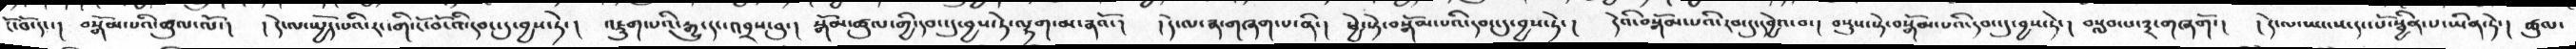ངོ་བོ་དང་།  བསྒོམ་པའི་ཚུལ་ལོ་།  །དེ་ལ་སྤྱོད་པའི་རང་གི་ངོ་བོ་འི་རབ་དུ་བྱས་ཏེ་།  འཇུག་པའི་རྒྱུ་དང་འབྲས་བུ་།  སྒོམ་ཚུལ་ཀྱིདབང་དུ་བྱས་ཏེ་ལྷག་མ་ནའོ་།  །དེ་ལ་ན་གཞག་པ་ནི་།  ཕྱེ་སྟེ་བསྒོམ་པའི་དབང་དུ་བྱས་ཏེ་།  དེའི་བསྒོམ་པའི་རབ་ཏུ་དབྱེའ་བ་།  བསྡུས་སྟེ་བསྒོམ་པའི་རབ་དུ་བྱས་ཏེ་།  བསླབ་པ་༣་གཞགོ་།   །ེ་ལ་ཡང་ས་དང་པོ་སྦྱིན་པ་ཡིན་ཏེ་།   ཚུལ་
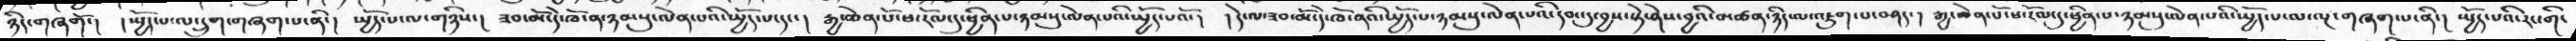ཉིད་གཞགོ་།  ། སྤྱོད་པ་ལ་དྲུག་གཞག་པ་ནི་།  སྤྱོད་པ་ལ་གཉིས་།  ཟབ་མོ་དེ་ཁོ་ན་ཉམསུ་ལེན་པའི་སྤྱོད་པ་དང་།  རྒྱ་ཆེན་པོ་ཕ་རོལ་དུ་ཕྱིན་པ་ཉམསུ་ལེན་པའི་སྤྱོད་པའོ་།  ། དེ་ལ་ཟབ་མོ་དེ་ཁོ་ནའི་སྤྱོད་པ་ཉམསུ་ལེན་པའི་དབང་དུ་བྱས་སྟེ་ཤེས་བྱའི་མཚན་ཉིད་ལ་འཇུག་པ་བཤད་།  རྒྱ་ཆེན་པོ་ཕ་རོལ་དུ་ཕྱིན་པ་ཉམསུ་ལེན་པའི་སྤྱོད་པ་ལ་ལྔ་གཞག་པ་ནི་།  སྤྱོད་པའི་རང་གི་
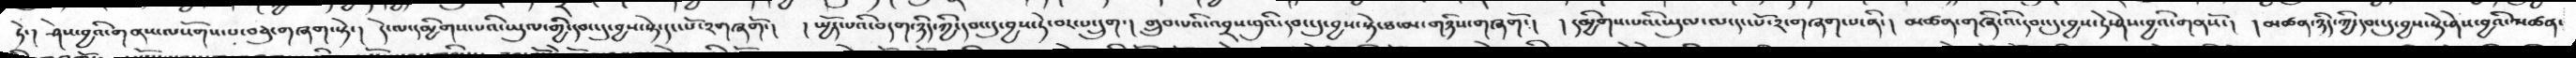ཏེ་།  ཤེས་བྱའི་གནས་ལསོགས་པ་བཅུ་གཞག་སྟེ་།  དེ་ལ་དམྱིགས་པའི་ཡུལ་གྱི་དབང་དུ་བྱས་སྟེ་དང་པོ་༢གཞགོ་།  ། སྤྱོད་པའི་བདག་ཉིད་ཀྱི་དབང་དུ་བྱས་ཏེ་བར་པ་དྲུག་།  གྲུབ་པའི་འབྲས་བུའི་དབང་དུ་བྱས་སྟེ་ཐ་མ་གཉིས་གཞགོ་།  ། དམྱིགས་པའི་ཡུལ་ལ་དང་པོ་༢་གཞག་པ་ནི་།   མཚན་གཞི་འི་དབང་དུ་བྱས་ཏེ་ཤེས་བྱའི་གནསོ་།  ། མཚན་ཉིད་ཀྱི་དབང་དུ་བྱས་སྟེ་ཤེས་བྱའི་མཚན་
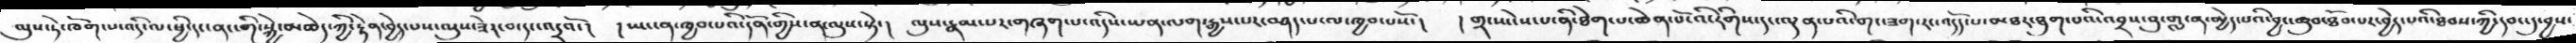ལུས་ཏེ་ཁོག་པ་འདི་ལ་ཕྱི་དང་ནང་གི་སྐྱེ་མཆེད་ཀྱི་རྟེན་བྱེད་པས་ལུས་ཟེར་བ་དང་འདྲའོ་།   ། ཡང་ན་ཁྱབ་པའི་དོན་གྱིས་ན་ལུས་སྟེ་།  ལུས་རྣམ་པར་གཞག་པ་འདིས་ཡན་ལག་རྒྱས་པར་བཤད་པ་ལ་ཁྱབ་པསོ་།  ། གྲ་ཡེ་ས་པ་ནི་ཐེག་པ་ཆེན་པོ་འི་རིགས་དང་ལྡན་པའི་གང་ཟག་རང་འདོད་པ་མཐར་ཐུག་པའི་འབྲས་བུ་གླ་ན་མྱེད་པའི་བྱང་ཆུབ་ཐོབ་པར་བྱེད་པའི་ཐབས་ཀྱི་དབང་དུ་བྱས་
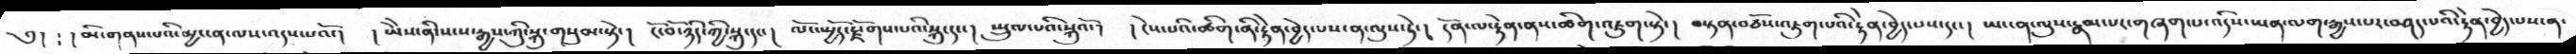༄།  ༴ ། མི་གནས་པའི་མྱ་ངན་ལས་འདས་པའོ་།  ། ཡཻས་ནི་སངས་རྒྱས་ཀྱི་སྐུ་གསུམ་སྟེ་།  ངོ་བོ་ཉིད་ཀྱི་སྐུ་དང་།  ལོངས་སྤྱོད་རྫོགས་པའི་སྐུ་དང་།  སྤྲུལ་པའི་སྐུའོ་།   ། ངེས་པའི་ཚིག་ནི་རྟེན་བྱེད་པས་ན་ལུས་ཏེ་།  དོན་ལ་རྟེན་ནས་ཚིག་འཇུག་སྟེ་།  བསྟན་བཅོས་འཇུག་པའི་རྟེན་བྱེད་པས་དང་།  ཡང་ན་ལུས་རྣམ་པར་གཞག་པ་འདིས་ཡན་ལག་རྒྱས་པར་བཤད་པའི་རྟེན་བྱེད་པས་ན་
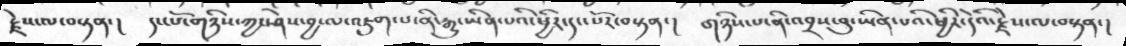རྗེས་ལ་བསྟན་།  དང་པོ་གཉིས་ཀྱང་ཤེས་བྱ་ལ་འཇུག་པ་ནི་རྒྱུ་ཡིན་པའི་ཕྱིར་དང་པོར་བསྟན་།   གཉིས་པ་ནི་འབྲས་བུ་ཡིན་པའི་ཕྱིར་དེའི་རྗེས་ལ་བསྟན་།
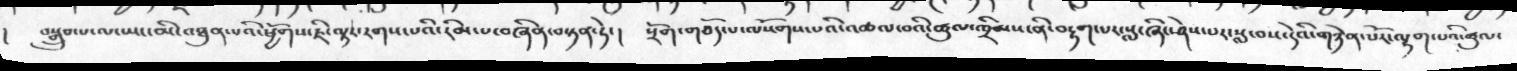།  བསྒྲུབ་པ་ལ་ཡང་མི་འཐུན་པའི་ཕྱོགས་ཇི་ལྟར་རགས་པའི་རིམ་པ་བཞིན་བསྟན་ཏེ་།  སྲོག་གཅོད་པ་ལསོགས་པའི་འཆལ་བའི་ཚུལ་ཁྲིམས་ནི་བརྟག་པར་སླ་ཞིང་ཉེས་པར་སླ་བས་དེའི་གཉེན་པོར་ལྷག་པའི་ཚུལ་
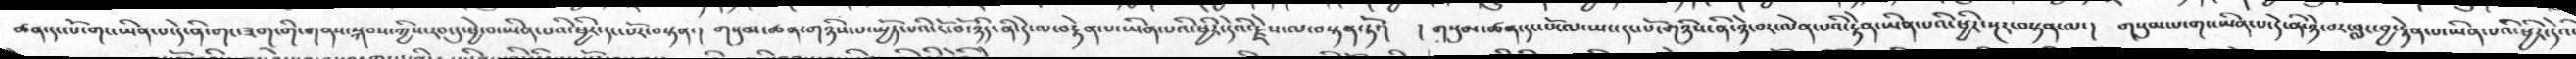ཚན་དང་པོ་གང་ཡིན་པ་དེ་ནི་གང་ཟག་གི་གནས་སྐབས་ཀྱིས་རབ་དུ་ཕྱེ་བ་ཡིན་པའི་ཕྱིར་དང་པོར་བསྟན་།  གསུམ་ཚན་གཉིས་པ་སྤྱོད་པའི་ངོ་བོ་ཉིད་ནི་དེ་ལ་བརྟེན་པ་ཡིན་པའི་ཕྱིར་དེའི་རྗེས་ལ་བསྟན་ཏོ་།   ། གསུམ་ཚན་དང་པོ་ལ་ཡང་དང་པོ་གཉིས་ནི་ཉེ་བར་ལེན་པའི་རྟེན་ཡིན་པའི་ཕྱིར་སྔར་བསྟན་ལ་།  གསུམ་པ་གང་ཡིན་པ་དེ་ནི་ཉེ་བར་བླང་བྱ་རྟེན་པ་ཡིན་པའི་ཕྱིར་དེའི་
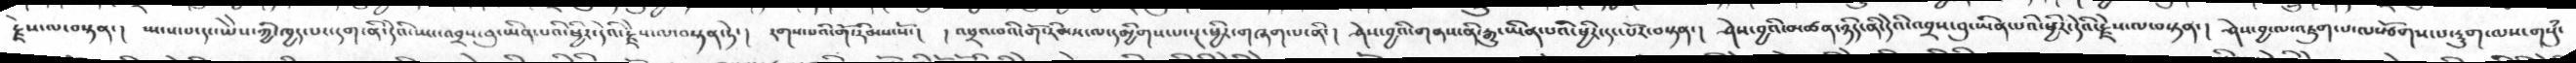རྗེས་ལ་བསྟན་།  སྤངས་པ་དང་ཡཻས་ཀྱི་ཁྱད་པར་དག་ནི་དེའི་ཡང་འབྲས་བུ་ཡིན་པའི་ཕྱིར་དེའི་རྗེས་ལ་བསྟན་ཏེ་།  རགས་པའི་གོ་རིམས་སོ་།  །འཕྲའ་བའི་གོ་རིམས་ལ་དམྱིགས་པ་སྔ་ཕྱིར་གཞག་པ་ནི་།  ཤེས་བྱའི་གནས་ནི་རྒྱུ་ཡིན་པའི་ཕྱིར་དང་པོར་བསྟན་།  ཤེས་བྱའི་མཚན་ཉིད་ནི་དེའི་འབྲས་བུ་ཡིན་པའི་ཕྱིར་དེའི་རྗེས་ལ་བསྟན་།  ཤེས་བྱ་ལ་འཇུག་པ་ལསྩོགས་པ་རྡུག་ལས་གསུཾ་
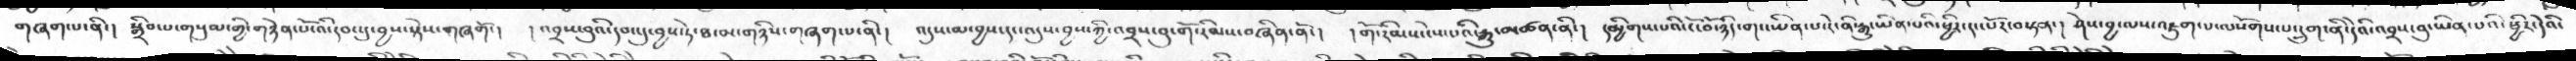གཞག་པ་ནི་།  སྒྲིབ་པ་གསུམ་གྱི་གཉེན་པོ་འི་རབ་དུ་བྱས་སྟེས་གཞགོ་།  །འབྲས་བུའི་རབ་ཏུ་བྱས་ཏེ་ཐ་མ་གཉིས་གཞག་པ་ནི་།  འདུས་མ་བྱས་དང་འདུས་བྱས་ཀྱི་འབྲས་བུ་གོ་རིམས་བཞིན་ནོ་།  །གོ་རིམས་ངེས་པའི་རྒྱུ་མཚན་ནི་།  དམྱིགས་པའི་ངོ་བོ་ཉིད་གང་ཡིན་པ་དེ་ནི་རྒྱུ་ཡིན་པའི་ཕྱིར་དང་པོར་བསྟན་།  ཤེས་བྱ་ལས་འཇུག་པ་ལསོགས་པ་དྲུག་ནི་དེའི་འབྲས་བུ་ཡིན་པའི་ཕྱིར་དེའི་
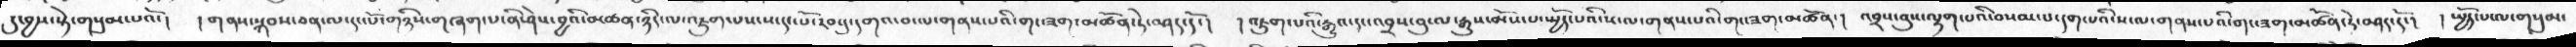དུ་བྱས་སྟེ་གསུམ་པའོ་།  །གནས་སྐབས་ཅན་ལ་དང་པོ་གཉིས་གཞག་པ་ནི་ཤེས་བྱའི་མཚན་ཉིད་ལ་འཇུག་པས་ས་དང་པོ་རབ་ཏུ་དགའ་བ་ལ་གནས་པའི་གང་ཟག་མཚོན་ཏེ་བཤད་དོ་།  །འཇུག་པའི་རྒྱུའ་དང་འབྲས་བུ་ལ་རྒྱུས་མོས་པ་སྤྱོད་པའི་ས་ལ་གནས་པའི་གང་ཟག་མཚོན་།  འབྲས་བུ་ལྷག་པའི་བསམ་པ་དག་པའི་ས་ལ་གནས་པའི་གང་ཟག་མཚོན་ཏེ་བཤད་དོ་།  །སྤྱོད་པ་ལ་གསུམ་
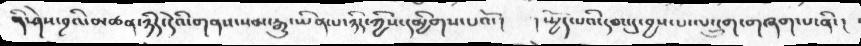ནི་ཤེས་བྱའི་མཚན་ཉིད་དེའི་གནས་སམ་རྒྱུ་ཡིན་པ་ཉིད་ཀྱིས་དམྱིགས་པའོ་།  ། སྤྱོད་པའི་རབ་དུ་བྱས་པ་ལ་དྲུག་གཞག་པ་ནི་།
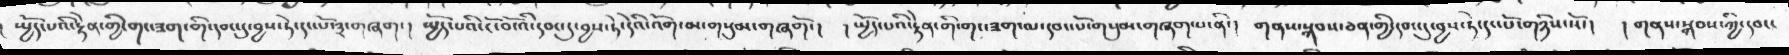སྤྱོད་པའི་རྟེན་གྱི་གང་ཟག་གི་དབང་དུ་བྱས་ཏེ་དང་པོ་༣་གཞག་།  སྤྱོད་པའི་ངོ་བོ་འི་དབང་དུ་བྱས་ཏེ་དེའི་འོག་མ་གསུམ་གཞགོ་།  ། སྤྱོད་པའི་རྟེན་གི་གང་ཟག་ལ་དབང་པོ་གསུམ་གཞག་པ་ནི་།  གནས་སྐབས་ཅན་གྱི་དབང་དུ་བྱས་ཏེ་དང་པོ་གཉིས་སོ་།  ། གནས་སྐབས་ཀྱི་དབང་
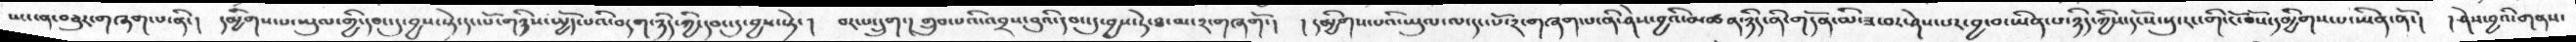ཡང་ན་བཅུར་གཞག་པ་ནི་།  དམྱིགས་པ་ཡུལ་གྱི་དབང་དུ་བྱས་སྟེ་དང་པོ་གཉིས་སྤྱོད་པའི་བདག་ཉིད་ཀྱི་དབང་དུ་བྱས་སྟེ་།  བར་པ་དྲུག་།  གྲུབ་པའི་འབྲས་བུའི་དབང་དུ་བྱས་ཏེ་ཐ་མ་༢་གཞགོ་།  །དམྱིགས་པའི་ཡུལ་ལ་དང་པོ་༢་གཞག་པ་ནི་ཤེས་བྱའི་མཚན་ཉིད་ནི་གདོན་མི་ཟ་བར་ཤེས་པར་བྱ་བ་ཡིན་པ་ཉིད་ཀྱིས་དངོས་སུ་རང་གི་ངོ་བོས་དམྱིགས་པ་ཡིན་ནོ་།  །ཤེས་བྱའི་གནས་
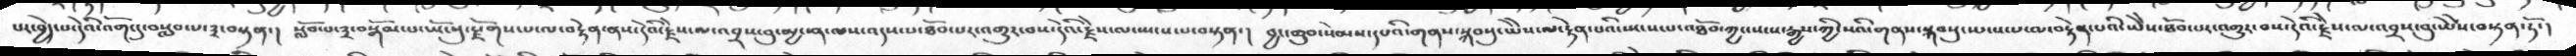པར་བྱེད་པ་དེའི་འོག་དུ་བསླབ་པ་༣་བསྟན་།  སློབ་པ་༣་བསྒོམ་པ་ཡོངསུ་རྫོགས་པ་ལ་བརྟེན་ནས་དེའི་རྗེས་ལ་འབྲས་བུ་མྱ་ངན་ལས་འདས་པ་ཐོབ་པར་འགྱུར་བས་དེའི་རྗེས་ལ་སྤངས་པ་བསྟན་།  བྱང་ཆུབ་སེམས་དཔའི་གནས་སྐབསུ་ཡེེས་ལ་རྟེན་པའི་སྤངས་པ་འཐོབ་ཀྱང་སངས་རྒྱས་ཀྱི་སའི་གནས་སྐབསུ་སྤངས་པ་ལ་བརྟེན་པའི་ཡེེས་ཐོབ་པར་འགྱུར་བས་དེའི་རྗེས་ལ་འབྲས་བུ་ཡེེས་བསྟན་ཏོ་།
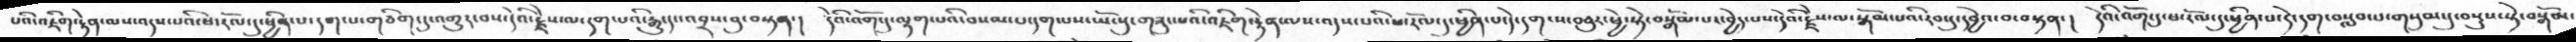པའི་འཇིག་རྟེན་ལས་འདས་པའི་ཕ་རོལ་དུ་ཕྱིན་པ་དག་པ་གཅིག་དུ་འགྱུར་བས་དེའི་རྗེས་ལ་དག་པའི་རྒྱུ་དང་འབྲས་བུ་བསྟན་།  དེའི་འོག་དུ་ལྷག་པའི་བསམ་པ་དག་པས་ཡོངསུ་གཟུང་པའི་འཇིག་རྟེན་ལས་འདས་པའི་ཕ་རོལ་དུ་ཕྱིན་པ་དེ་དག་ས་བཞུར་ཕྱེ་སྟེ་བསྒོམ་པར་བྱེད་པས་དེའི་རྗེས་ལ་སྒོམ་པའི་རབ་དུ་དབྱེའ་བ་བསྟན་།  དེའི་འོག་དུ་ཕ་རོལ་དུ་ཕྱིན་པ་དེ་དག་བསླབ་པ་གསུམ་དུ་བསྡུས་སྟེ་བསྒོམ་
